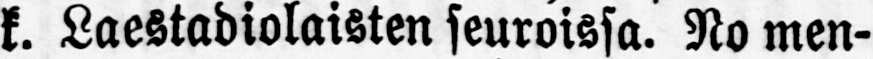k. Laestadiolaisten seuroissa. No men-
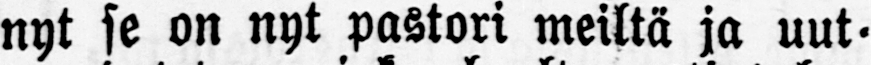nyt se on nyt pastori meiltä ja uut-
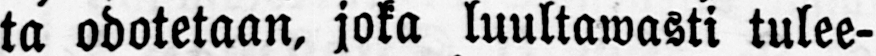ta odotetaan, joka luultawasti tulee-
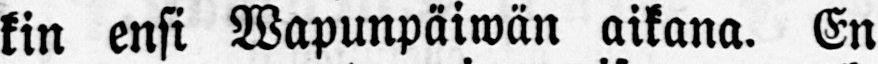kin ensi Wapunpäiwän aikana. En
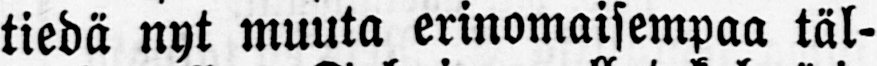tiedä nyt muuta erinomaisempaa täl-
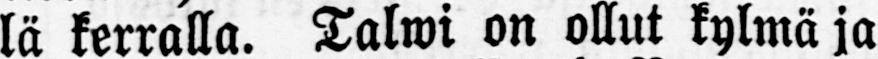lä kerralla. Talwi on ollut kylmä ja
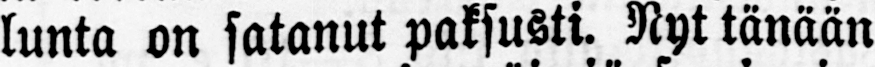lunta on satanut paksusti. Nyt tänään
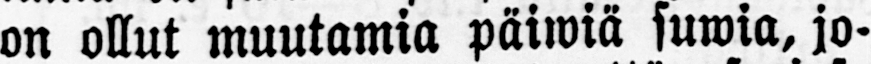on ollut muutamia päiwiä suwia, jo-
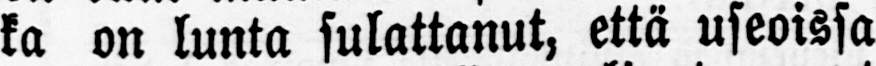ka on lunta sulattanut, että uskoissa
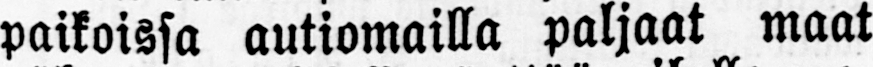paikoissa autiomailla paljaat maat
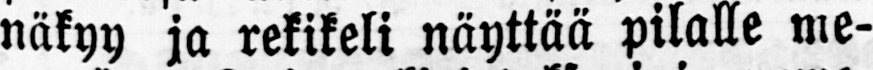näkyy ja rekikeli näyttää pilalle me-
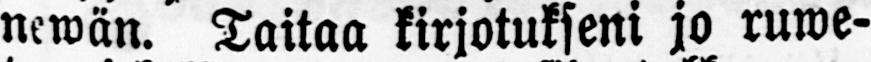newän. Taitaa kirjotukseni jo ruwe-
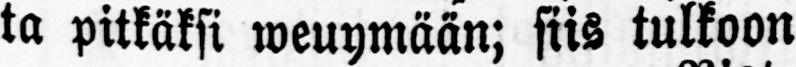ta pitkäksi weuymään; siis tulkoon
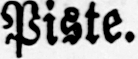Piste.
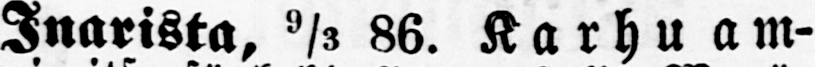Inarista, 9/3 86. Karhu am-
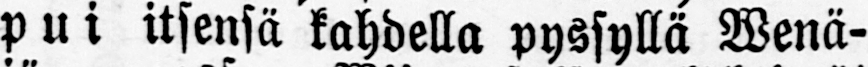pui itsensä kahdella pyssyllä Wenä-
